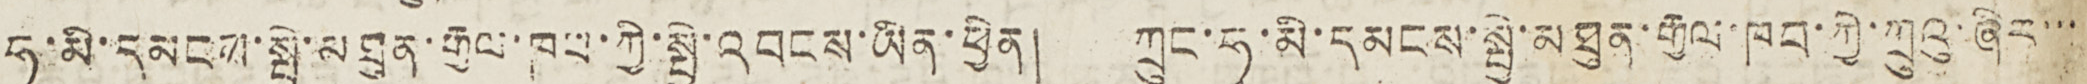ཧྭ་མི་དམངས་སྤྱི་མཐུན་རྒྱལ་ཁབ་ཀྱི་སྤྱི་འབངས་ཡིན་ཕྱིན། ཀྲུང་ཧྭ་མི་དམངས་སྤྱི་མཐུན་རྒྱལ་ཁབ་ཀྱི་ཀྲུའུ་ཞིར་་་
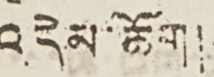འདེམ་ཆོག།
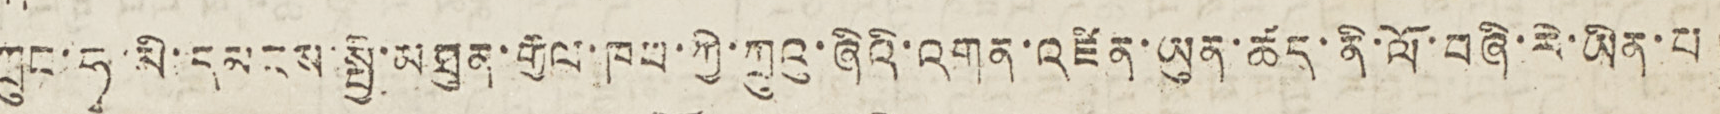ཀྲུང་ཧྭ་མི་དམངས་སྤྱི་མཐུན་རྒྱལ་ཁབ་ཀྱི་ཀྲུའུ་ཞིའི་འགན་འཛིན་ཡུན་ཚད་མི་ལོ་བཞི་རེ་ཡིན་པ།
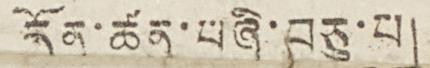དོན་ཚན་བཞི་བཅུ་པ།
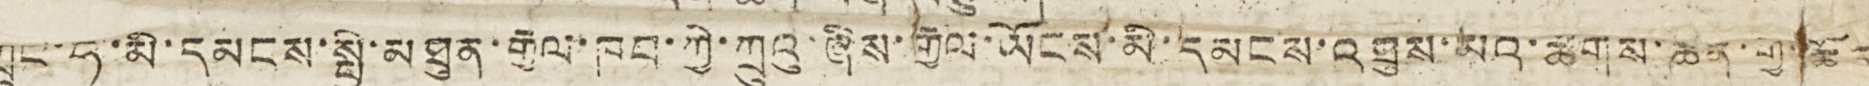ཀྲུང་ཧྭ་མི་དམངས་སྤྱི་མཐུན་རྒྱལ་ཁབ་ཀྱི་ཀྲུའུ་ཞིས་རྒྱལ་ཡོངས་མི་དམངས་འཐུས་མིའི་ཚོགས་ཆེན་གྱི་ཆོད་
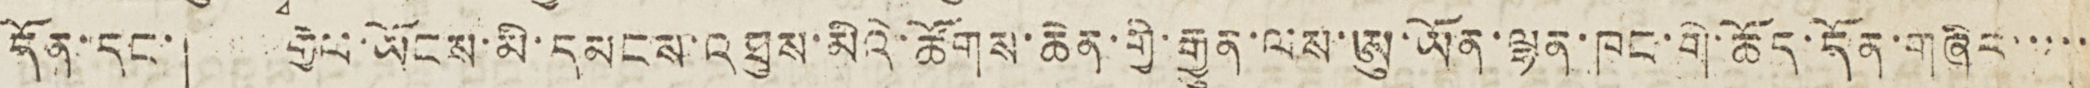དོན་དང་། རྒྱལ་ཡོངས་མི་དམངས་འཐུས་མིའི་ཚོགས་ཆེན་གྱི་རྒྱུན་ལས་ཨུ་ཡོན་ལྷན་ཁང་གི་ཆོད་དོན་གཞིང་་་་་
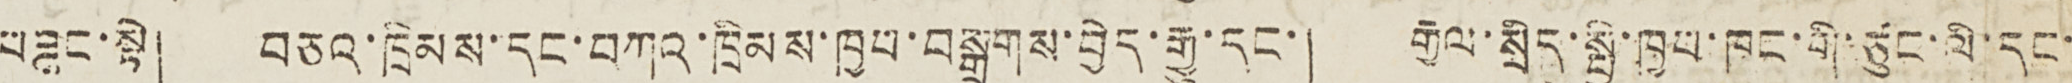བཟུང་སྟེ། བཅའ་ཁྲིམས་དང་བཀའ་ཁྲིམས་ཁྱབ་བསྒྲགས་བྱེད་རྒྱུ་དང་། རྒྱལ་སྲིད་སྤྱི་ཁྱབ་ཁང་གི་ཙུང་ལི་དང་
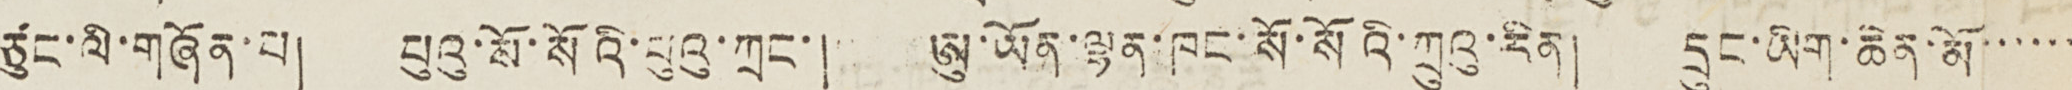ཙུང་ལི་གཞོན་པ། པུའུ་སོ་སོའི་པུའུ་ཀྲང་། ཨུ་ཡོན་ལྷན་ཁང་སོ་སོའི་ཀྲུའུ་རིན། དྲུང་ཡིག་ཆེན་མོ་་་་་་
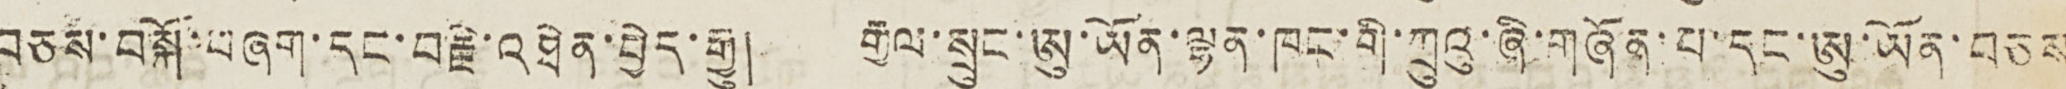བཅས་བསྐོ་བཞག་དང་བརྗེ་འཐེན་བྱེད་རྒྱུ། རྒྱལ་སྲུང་ཨུ་ཡོན་ལྷན་ཁང་གི་ཀྲུའུ་ཞི་གཞོན་པ་དང་ཨུ་ཡོན་བཅས
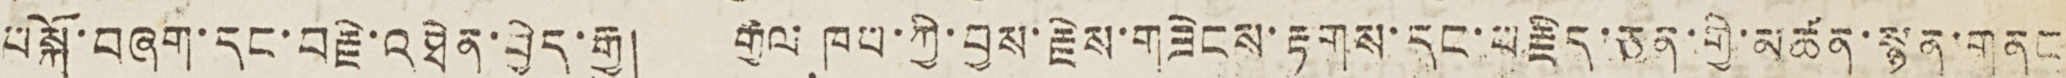བསྐོ་བཞག་དང་བརྗེ་འཐེན་བྱེད་རྒྱུ། རྒྱལ ཁབ་ཀྱི་བྱས་རྗེས་གཟེངས་རྟགས་དང་བརྗིད་ཅན་གྱི་མཚན་སྙན་གནང་
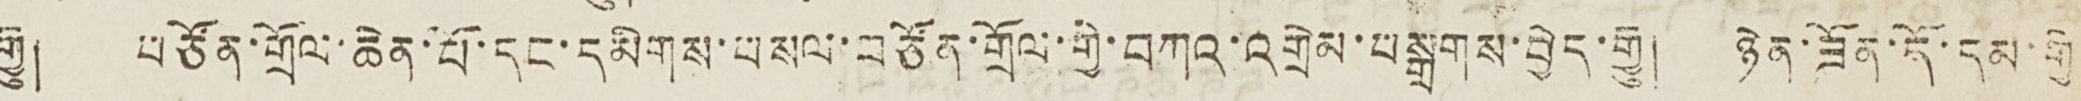རྒྱུ། བཙོན་གྲོལ་ཆེན་པོ་དང་དམིགས་བསལ་བཙོན་གྲོལ་གྱི་བཀའ་འགྲེམ་བསྒྲགས་བྱེད་རྒྱུ། ཉེན་ཟོན་དོ་དམ་གྱི
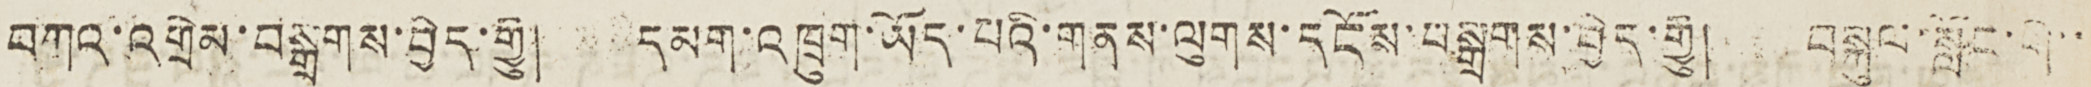བཀའ་འགྲེམ་བསྒྲགས་བྱེད་རྒྱུ། དམག་འཁྲུག་ཡོད་པའི་གནས་ལུགས་དངོས་བསྒྲགས་བྱེད་རྒྱུ། བསྐུལ་སློང་གི་་
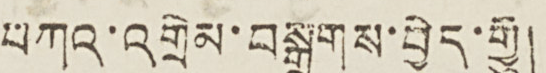བཀའ་འགྲེམ་བསྒྲགས་བྱེད་རྒྱུ།
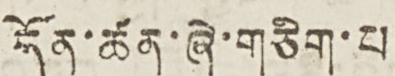དོན་ཚན་ཞེ་གཅིག་པ།
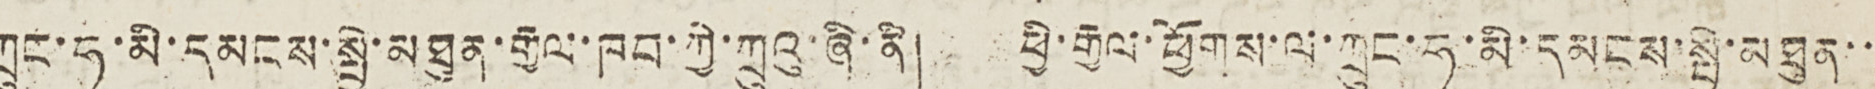ཀྲུང་ཧྭ་མི་དམངས་སྤྱི་མཐུན་རྒྱལ་ཁབ་ཀྱི་ཀྲུའུ་ཞི་ནི། ཕྱི་རྒྱལ་ཕྱོགས་ལ་ཀྲུང་ཧྭ་མི་དམངས་སྤྱི་མཐུན་་་
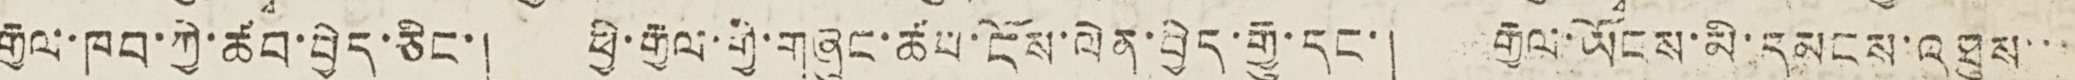རྒྱལ་ཁབ་ཀྱི་ཚབ་བྱེད་ཅིང་། ཕྱི་རྒྱལ་གྱི་གཞུང་ཚབ་ངོས་ལེན་བྱེད་རྒྱུ་དང་། རྒྱལ་ཡོངས་མི་དམངས་འཐུས་་་
